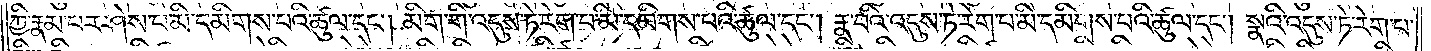ཀྱི་རྣམ་པར་ཤེས་པ་མི་དམིགས་པའི་ཚུལ་དང༌། མིག་གི་འདུས་ཏེ་རེག་པ་མི་དམིགས་པའི་ཚུལ་དང༌། རྣ་བའི་འདུས་ཏེ་རེག་པ་མི་དམིགས་པའི་ཚུལ་དང༌། སྣའི་འདུས་ཏེ་རེག་པ་
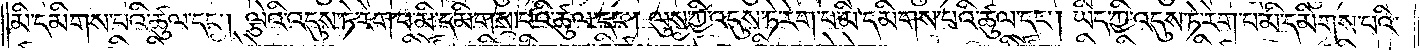མི་དམིགས་པའི་ཚུལ་དང༌། ལྕེའི་འདུས་ཏེ་རེག་པ་མི་དམིགས་པའི་ཚུལ་དང༌། ལུས་ཀྱི་འདུས་ཏེ་རེག་པ་མི་དམིགས་པའི་ཚུལ་དང༌། ཡིད་ཀྱི་འདུས་ཏེ་རེག་པ་མི་དམིགས་པའི་
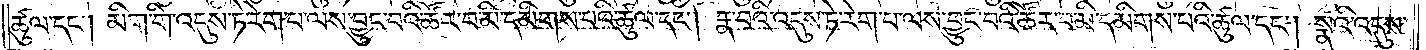ཚུལ་དང༌། མིག་གི་འདུས་ཏེ་རེག་པ་ལས་བྱུང་བའི་ཚོར་བ་མི་དམིགས་པའི་ཚུལ་དང༌། རྣ་བའི་འདུས་ཏེ་རེག་པ་ལས་བྱུང་བའི་ཚོར་བ་མི་དམིགས་པའི་ཚུལ་དང༌། སྣའི་འདུས་
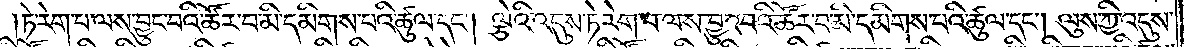ཏེ་རེག་པ་ལས་བྱུང་བའི་ཚོར་བ་མི་དམིགས་པའི་ཚུལ་དང༌། ལྕེའི་འདུས་ཏེ་རེག་པ་ལས་བྱུང་བའི་ཚོར་བ་མི་དམིགས་པའི་ཚུལ་དང༌། ལུས་ཀྱི་འདུས་
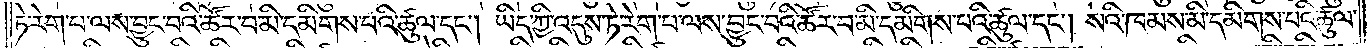ཏེ་རེག་པ་ལས་བྱུང་བའི་ཚོར་བ་མི་དམིགས་པའི་ཚུལ་དང༌། ཡིད་ཀྱི་འདུས་ཏེ་རེག་པ་ལས་བྱུང་བའི་ཚོར་བ་མི་དམིགས་པའི་ཚུལ་དང༌། སའི་ཁམས་མི་དམིགས་པའི་ཚུལ་
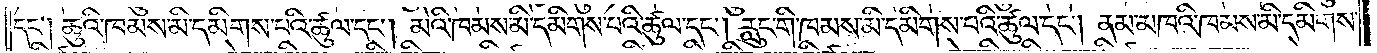དང༌། ཆུའི་ཁམས་མི་དམིགས་པའི་ཚུལ་དང༌། མེའི་ཁམས་མི་དམིགས་པའི་ཚུལ་དང༌། རླུང་གི་ཁམས་མི་དམིགས་པའི་ཚུལ་དང༌། ནམ་མཁའི་ཁམས་མི་དམིགས་
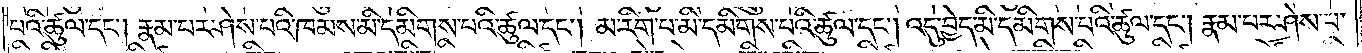པའི་ཚུལ་དང༌། རྣམ་པར་ཤེས་པའི་ཁམས་མི་དམིགས་པའི་ཚུལ་དང༌། མ་རིག་པ་མི་དམིགས་པའི་ཚུལ་དང༌། འདུ་བྱེད་མི་དམིགས་པའི་ཚུལ་དང༌། རྣམ་པར་ཤེས་པ་
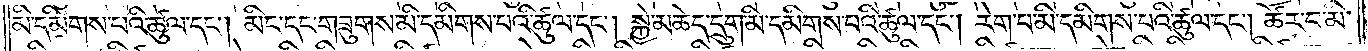མི་དམིགས་པའི་ཚུལ་དང༌། མིང་དང་གཟུགས་མི་དམིགས་པའི་ཚུལ་དང༌། སྐྱེ་མཆེད་དྲུག་མི་དམིགས་པའི་ཚུལ་དང༌། རེག་པ་མི་དམིགས་པའི་ཚུལ་དང༌། ཚོར་བ་མི་
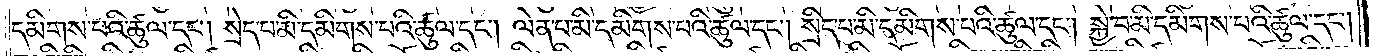དམིགས་པའི་ཚུལ་དང༌། སྲེད་པ་མི་དམིགས་པའི་ཚུལ་དང༌། ལེན་པ་མི་དམིགས་པའི་ཚུལ་དང༌། སྲིད་པ་མི་དམིགས་པའི་ཚུལ་དང༌། སྐྱེ་བ་མི་དམིགས་པའི་ཚུལ་དང༌།
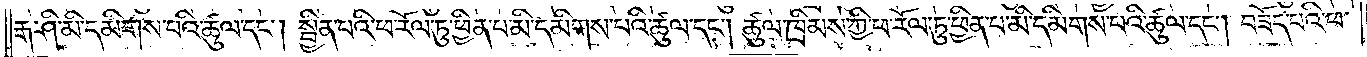རྒ་ཤི་མི་དམིགས་པའི་ཚུལ་དང༌། སྦྱིན་པའི་ཕ་རོལ་ཏུ་ཕྱིན་པ་མི་དམིགས་པའི་ཚུལ་དང༌། ཚུལ་ཁྲིམས་ཀྱི་ཕ་རོལ་ཏུ་ཕྱིན་པ་མི་དམིགས་པའི་ཚུལ་དང༌། བཟོད་པའི་ཕ་
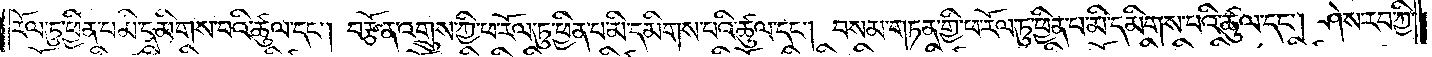རོལ་ཏུ་ཕྱིན་པ་མི་དམིགས་པའི་ཚུལ་དང༌། བརྩོན་འགྲུས་ཀྱི་ཕ་རོལ་ཏུ་ཕྱིན་པ་མི་དམིགས་པའི་ཚུལ་དང༌། བསམ་གཏན་གྱི་ཕ་རོལ་ཏུ་ཕྱིན་པ་མི་དམིགས་པའི་ཚུལ་དང༌། ཤེས་རབ་ཀྱི་
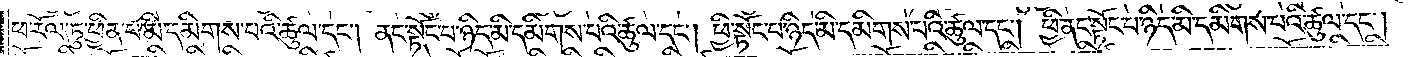ཕ་རོལ་ཏུ་ཕྱིན་པ་མི་དམིགས་པའི་ཚུལ་དང༌། ནང་སྟོང་པ་ཉིད་མི་དམིགས་པའི་ཚུལ་དང༌། ཕྱི་སྟོང་པ་ཉིད་མི་དམིགས་པའི་ཚུལ་དང༌། ཕྱི་ནང་སྟོང་པ་ཉིད་མི་དམིགས་པའི་ཚུལ་དང༌།
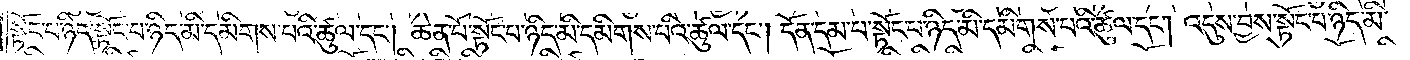སྟོང་པ་ཉིད་སྟོང་པ་ཉིད་མི་དམིགས་པའི་ཚུལ་དང༌། ཆེན་པོ་སྟོང་པ་ཉིད་མི་དམིགས་པའི་ཚུལ་དང༌། དོན་དམ་པ་སྟོང་པ་ཉིད་མི་དམིགས་པའི་ཚུལ་དང༌། འདུས་བྱས་སྟོང་པ་ཉིད་མི་
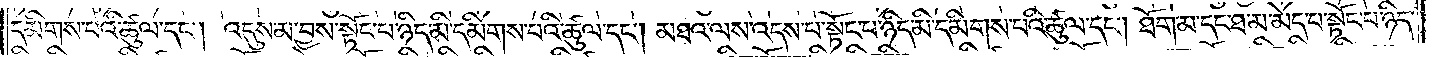དམིགས་པའི་ཚུལ་དང༌། འདུས་མ་བྱས་སྟོང་པ་ཉིད་མི་དམིགས་པའི་ཚུལ་དང༌། མཐའ་ལས་འདས་པ་སྟོང་པ་ཉིད་མི་དམིགས་པའི་ཚུལ་དང༌། ཐོག་མ་དང་ཐ་མ་མེད་པ་སྟོང་པ་ཉིད་
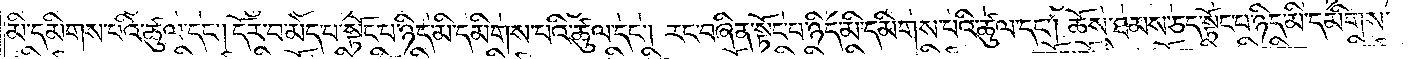མི་དམིགས་པའི་ཚུལ་དང༌། དོར་བ་མེད་པ་སྟོང་པ་ཉིད་མི་དམིགས་པའི་ཚུལ་དང༌། རང་བཞིན་སྟོང་པ་ཉིད་མི་དམིགས་པའི་ཚུལ་དང༌། ཆོས་ཐམས་ཅད་སྟོང་པ་ཉིད་མི་དམིགས་
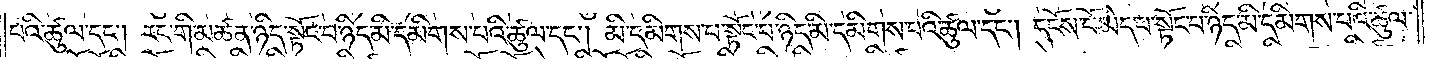པའི་ཚུལ་དང༌། རང་གི་མཚན་ཉིད་སྟོང་པ་ཉིད་མི་དམིགས་པའི་ཚུལ་དང༌། མི་དམིགས་པ་སྟོང་པ་ཉིད་མི་དམིགས་པའི་ཚུལ་དང༌། དངོས་པོ་མེད་པ་སྟོང་པ་ཉིད་མི་དམིགས་པའི་ཚུལ་
